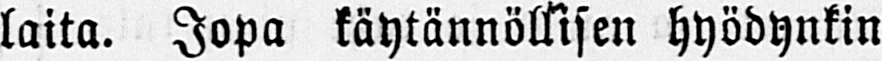laita. Jopa käytännöllisen hyödynkin
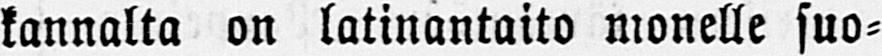kannalta on latinantaito monelle suo-
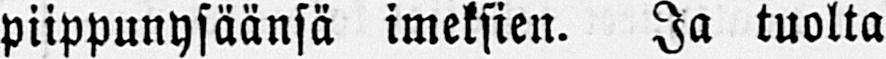piippunysäänsä imeksien. Ja tuolta
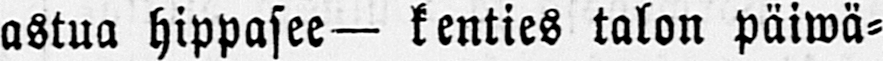astua hippasee— kenties talon päiwä-
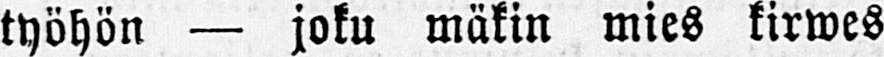työhön — joku mäkin mies kirwes
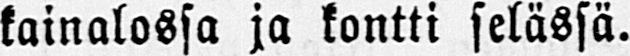kainalossa ja kontti selässä.
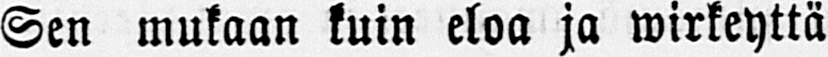Sen mukaan kuin eloa ja wirkeyttä
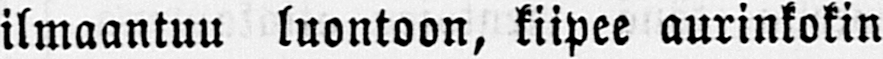ilmaantuu luontoon, kiipee aurinkokin
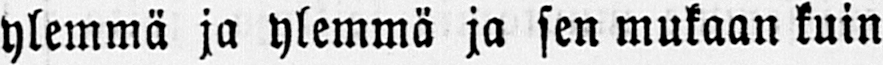ylemmä ja ylemmä ja sen mukaan kuin
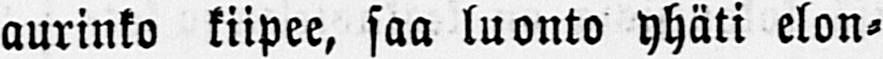aurinko kiipee, saa luonto yhäti elon-
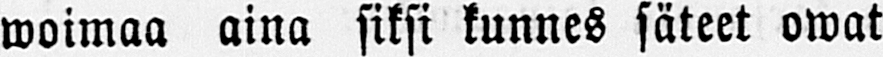woimaa aina siksi kunnes säteet owat
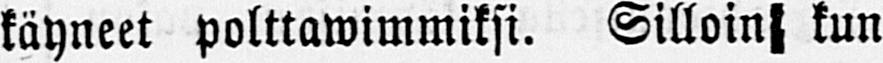käyneet polttawimmiksi. Silloin kun
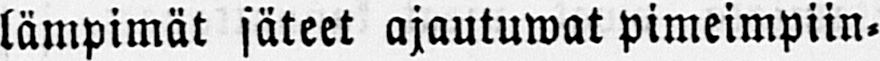lämpimät säteet ajautuwat pimeimpiin-
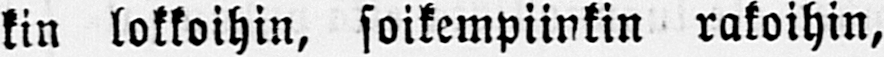kin lokkoihin, soikempiinkin rakoihin,
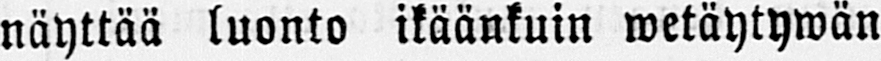näyttää luonto ikäänkuin wetäytywän
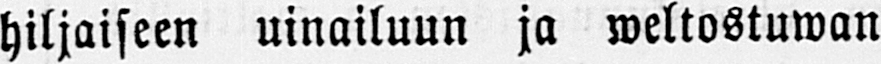hiljaiseen uinailuun ja weltostuwan
